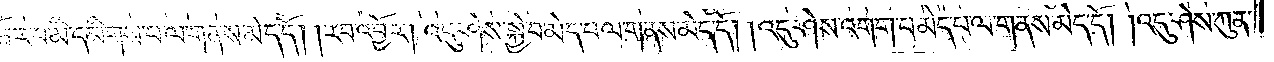མེད་དོ། །ཚོར་བ་མི་དམིགས་པ་ལ་གནས་མེད་དོ། །རབ་འབྱོར། འདུ་ཤེས་སྐྱེ་བ་མེད་པ་ལ་གནས་མེད་དོ། །འདུ་ཤེས་འགག་པ་མེད་པ་ལ་གནས་མེད་དོ། །འདུ་ཤེས་ཀུན་
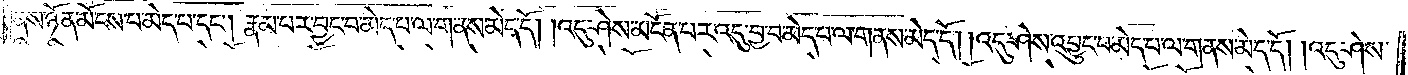ནས་ཉོན་མོངས་པ་མེད་པ་དང༌། རྣམ་པར་བྱང་བ་མེད་པ་ལ་གནས་མེད་དོ། །འདུ་ཤེས་མངོན་པར་འདུ་བྱ་བ་མེད་པ་ལ་གནས་མེད་དོ། །འདུ་ཤེས་འབྱུང་བ་མེད་པ་ལ་གནས་མེད་དོ། །འདུ་ཤེས་
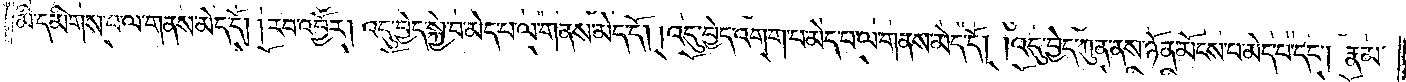མི་དམིགས་པ་ལ་གནས་མེད་དོ། །རབ་འབྱོར། འདུ་བྱེད་སྐྱེ་བ་མེད་པ་ལ་གནས་མེད་དོ། །འདུ་བྱེད་འགག་པ་མེད་པ་ལ་གནས་མེད་དོ། །འདུ་བྱེད་ཀུན་ནས་ཉོན་མོངས་པ་མེད་པ་དང༌། རྣམ་
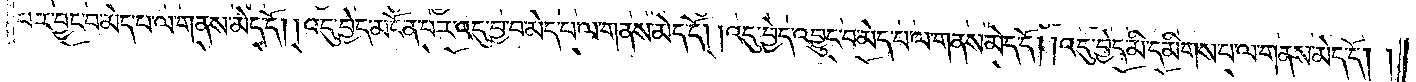པར་བྱང་བ་མེད་པ་ལ་གནས་མེད་དོ། །འདུ་བྱེད་མངོན་པར་འདུ་བྱ་བ་མེད་པ་ལ་གནས་མེད་དོ། །འདུ་བྱེད་འབྱུང་བ་མེད་པ་ལ་གནས་མེད་དོ། །འདུ་བྱེད་མི་དམིགས་པ་ལ་གནས་མེད་དོ། །
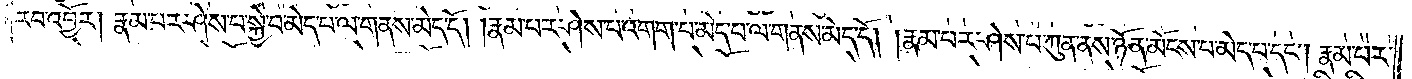རབ་འབྱོར། རྣམ་པར་ཤེས་པ་སྐྱེ་བ་མེད་པ་ལ་གནས་མེད་དོ། །རྣམ་པར་ཤེས་པ་འགག་པ་མེད་པ་ལ་གནས་མེད་དོ། །རྣམ་པར་ཤེས་པ་ཀུན་ནས་ཉོན་མོངས་པ་མེད་པ་དང༌། རྣམ་པར་
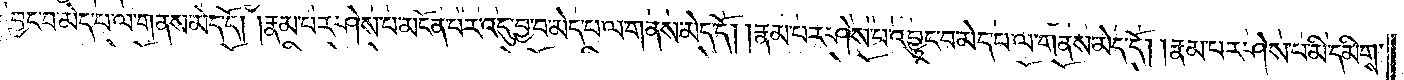བྱང་བ་མེད་པ་ལ་གནས་མེད་དོ། །རྣམ་པར་ཤེས་པ་མངོན་པར་འདུ་བྱ་བ་མེད་པ་ལ་གནས་མེད་དོ། །རྣམ་པར་ཤེས་པ་འབྱུང་བ་མེད་པ་ལ་གནས་མེད་དོ། །རྣམ་པར་ཤེས་པ་མི་དམིགས་
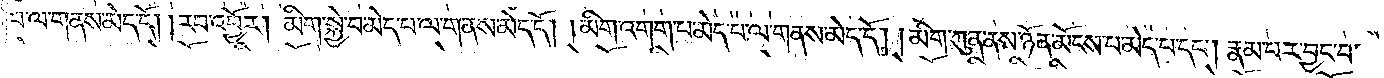པ་ལ་གནས་མེད་དོ། །རབ་འབྱོར། མིག་སྐྱེ་བ་མེད་པ་ལ་གནས་མེད་དོ། །མིག་འགག་པ་མེད་པ་ལ་གནས་མེད་དོ། །མིག་ཀུན་ནས་ཉོན་མོངས་པ་མེད་པ་དང༌། རྣམ་པར་བྱང་བ་
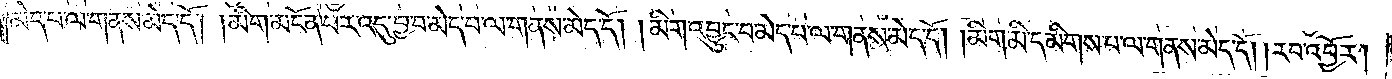མེད་པ་ལ་གནས་མེད་དོ། །མིག་མངོན་པར་འདུ་བྱ་བ་མེད་པ་ལ་གནས་མེད་དོ། །མིག་འབྱུང་བ་མེད་པ་ལ་གནས་མེད་དོ། །མིག་མི་དམིགས་པ་ལ་གནས་མེད་དོ། །རབ་འབྱོར།
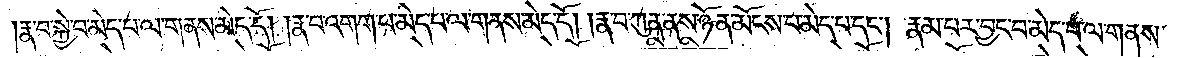རྣ་བ་སྐྱེ་བ་མེད་པ་ལ་གནས་མེད་དོ། །རྣ་བ་འགག་པ་མེད་པ་ལ་གནས་མེད་དོ། །རྣ་བ་ཀུན་ནས་ཉོན་མོངས་པ་མེད་པ་དང༌། རྣམ་པར་བྱང་བ་མེད་པ་ལ་གནས་
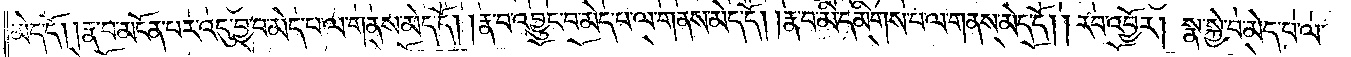མེད་དོ། །རྣ་བ་མངོན་པར་འདུ་བྱ་བ་མེད་པ་ལ་གནས་མེད་དོ། །རྣ་བ་འབྱུང་བ་མེད་པ་ལ་གནས་མེད་དོ། །རྣ་བ་མི་དམིགས་པ་ལ་གནས་མེད་དོ། །རབ་འབྱོར། སྣ་སྐྱེ་བ་མེད་པ་ལ་
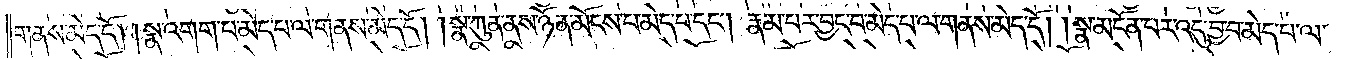གནས་མེད་དོ། །སྣ་འགག་པ་མེད་པ་ལ་གནས་མེད་དོ། །སྣ་ཀུན་ནས་ཉོན་མོངས་པ་མེད་པ་དང༌། རྣམ་པར་བྱང་བ་མེད་པ་ལ་གནས་མེད་དོ། །སྣ་མངོན་པར་འདུ་བྱ་བ་མེད་པ་ལ་
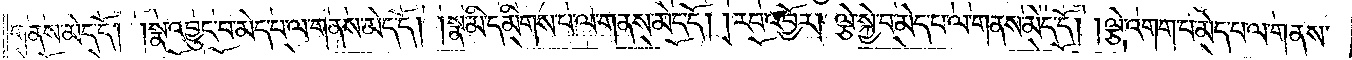གནས་མེད་དོ། །སྣ་འབྱུང་བ་མེད་པ་ལ་གནས་མེད་དོ། །སྣ་མི་དམིགས་པ་ལ་གནས་མེད་དོ། །རབ་འབྱོར། ལྕེ་སྐྱེ་བ་མེད་པ་ལ་གནས་མེད་དོ། །ལྕེ་འགག་པ་མེད་པ་ལ་གནས་
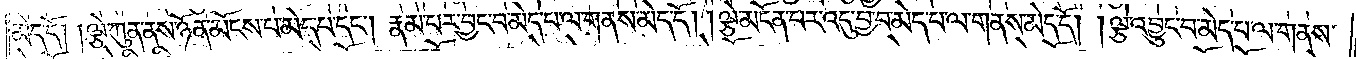མེད་དོ། །ལྕེ་ཀུན་ནས་ཉོན་མོངས་པ་མེད་པ་དང༌། རྣམ་པར་བྱང་བ་མེད་པ་ལ་གནས་མེད་དོ། །ལྕེ་མངོན་པར་འདུ་བྱ་བ་མེད་པ་ལ་གནས་མེད་དོ། །ལྕེ་འབྱུང་བ་མེད་པ་ལ་གནས་
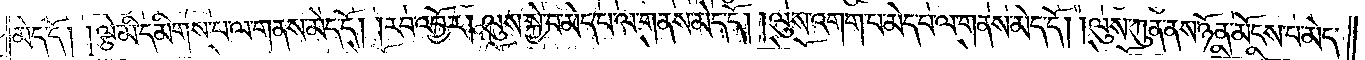མེད་དོ། །ལྕེ་མི་དམིགས་པ་ལ་གནས་མེད་དོ། །རབ་འབྱོར། ལུས་སྐྱེ་བ་མེད་པ་ལ་གནས་མེད་དོ། །ལུས་འགག་པ་མེད་པ་ལ་གནས་མེད་དོ། །ལུས་ཀུན་ནས་ཉོན་མོངས་པ་མེད་
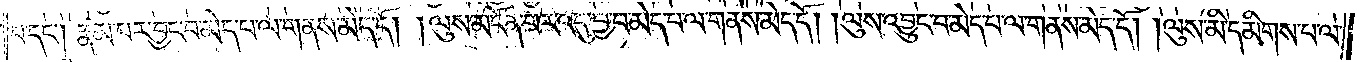པ་དང༌། རྣམ་པར་བྱང་བ་མེད་པ་ལ་གནས་མེད་དོ། །ལུས་མངོན་པར་འདུ་བྱ་བ་མེད་པ་ལ་གནས་མེད་དོ། །ལུས་འབྱུང་བ་མེད་པ་ལ་གནས་མེད་དོ། །ལུས་མི་དམིགས་པ་ལ་
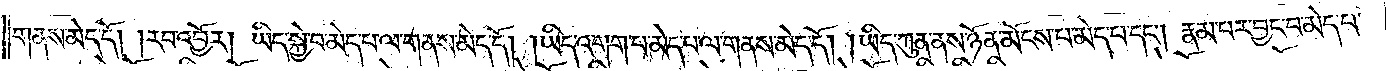གནས་མེད་དོ། །རབ་འབྱོར། ཡིད་སྐྱེ་བ་མེད་པ་ལ་གནས་མེད་དོ། །ཡིད་འགག་པ་མེད་པ་ལ་གནས་མེད་དོ། །ཡིད་ཀུན་ནས་ཉོན་མོངས་པ་མེད་པ་དང༌། རྣམ་པར་བྱང་བ་མེད་པ་
